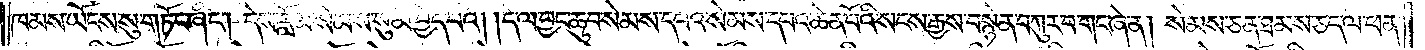ཁམས་ཡོངས་སུ་གཏོང་ཞིང༌། དེས་རློམ་སེམས་སུ་མི་བྱེད་པའོ། །དེ་ལ་བྱང་ཆུབ་སེམས་དཔའ་སེམས་དཔའ་ཆེན་པོའི་སངས་རྒྱས་བསྙེན་བཀུར་བ་གང་ཞེ་ན། སེམས་ཅན་ཐམས་ཅད་ལ་ཕན་
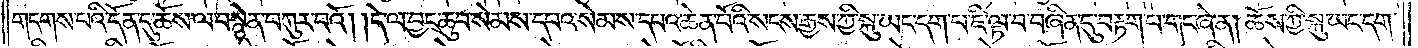གདགས་པའི་དོན་དུ་ཆོས་ལ་བསྙེན་བཀུར་བའོ། །དེ་ལ་བྱང་ཆུབ་སེམས་དཔའ་སེམས་དཔའ་ཆེན་པོའི་སངས་རྒྱས་ཀྱི་སྐུ་ཡང་དག་པ་ཇི་ལྟ་བ་བཞིན་དུ་བརྟག་པ་གང་ཞེ་ན། ཆོས་ཀྱི་སྐུ་ཡང་དག་
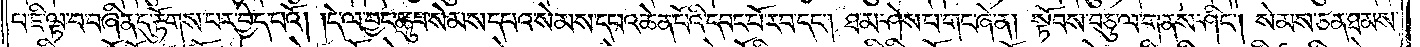པ་ཇི་ལྟ་བ་བཞིན་དུ་རྟོགས་པར་བྱེད་པའོ། །དེ་ལ་བྱང་ཆུབ་སེམས་དཔའ་སེམས་དཔའ་ཆེན་པོའི་དབང་པོ་རབ་དང༌། ཐ་མ་ཤེས་པ་གང་ཞེ་ན། སྟོབས་བཅུ་ལ་གནས་ཤིང༌། སེམས་ཅན་ཐམས་
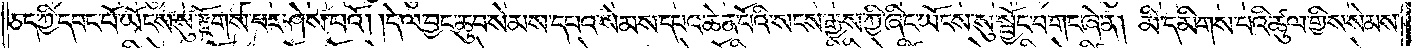ཅད་ཀྱི་དབང་པོ་ཡོངས་སུ་རྫོགས་པར་ཤེས་པའོ། །དེ་ལ་བྱང་ཆུབ་སེམས་དཔའ་སེམས་དཔའ་ཆེན་པོའི་སངས་རྒྱས་ཀྱི་ཞིང་ཡོངས་སུ་སྦྱོང་བ་གང་ཞེ་ན། མི་དམིགས་པའི་ཚུལ་གྱིས་སེམས་
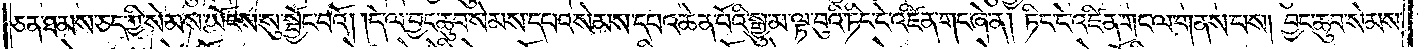ཅན་ཐམས་ཅད་ཀྱི་སེམས་ཡོངས་སུ་སྦྱོང་བའོ། །དེ་ལ་བྱང་ཆུབ་སེམས་དཔའ་སེམས་དཔའ་ཆེན་པོའི་སྒྱུ་མ་ལྟ་བུའི་ཏིང་ངེ་འཛིན་གང་ཞེ་ན། ཏིང་ངེ་འཛིན་གང་ལ་གནས་པས། བྱང་ཆུབ་སེམས་
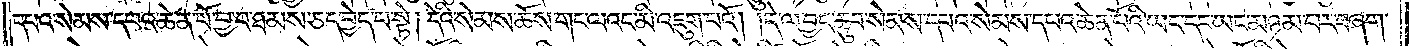དཔའ་སེམས་དཔའ་ཆེན་པོ་བྱ་བ་ཐམས་ཅད་བྱེད་པ་སྟེ། དེའི་སེམས་ཆོས་གང་ལའང་མི་འཇུག་པའོ། །དེ་ལ་བྱང་ཆུབ་སེམས་དཔའ་སེམས་དཔའ་ཆེན་པོའི་ཡང་དང་ཡང་མཉམ་པར་བཞག་
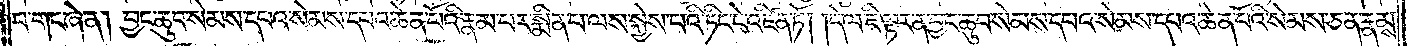པ་གང་ཞེ་ན། བྱང་ཆུབ་སེམས་དཔའ་སེམས་དཔའ་ཆེན་པོའི་རྣམ་པར་སྨིན་པ་ལས་སྐྱེས་པའི་ཏིང་ངེ་འཛིན་ཏོ། །དེ་ལ་ཇི་ལྟར་ན་བྱང་ཆུབ་སེམས་དཔའ་སེམས་དཔའ་ཆེན་པོའི་སེམས་ཅན་རྣམས་
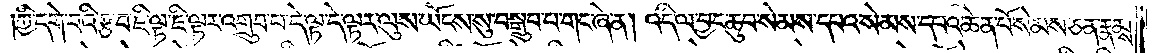ཀྱི་དགེ་བའི་རྩ་བ་ཇི་ལྟ་ཇི་ལྟར་འགྲུབ་པ་དེ་ལྟ་དེ་ལྟར་ལུས་ཡོངས་སུ་བསྒྲུབ་པ་གང་ཞེ་ན། འདི་ལ་བྱང་ཆུབ་སེམས་དཔའ་སེམས་དཔའ་ཆེན་པོ་སེམས་ཅན་རྣམས་
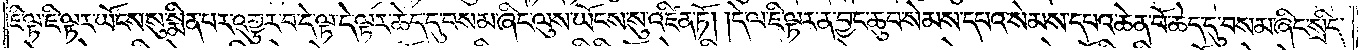ཇི་ལྟ་ཇི་ལྟར་ཡོངས་སུ་སྨིན་པར་འགྱུར་བ་དེ་ལྟར་དེ་ལྟར་ཆེད་དུ་བསམས་ཤིང་ལུས་ཡོངས་སུ་འཛིན་ཏོ། །དེ་ལ་ཇི་ལྟར་ན་བྱང་ཆུབ་སེམས་དཔའ་སེམས་དཔའ་ཆེན་པོ་ཆེད་དུ་བསམས་ཤིང་སྲིད་
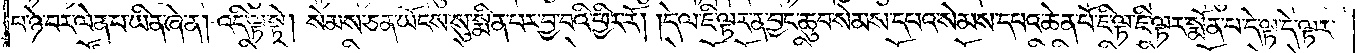པ་ཉེ་བར་ལེན་པ་ཡིན་ཞེ་ན། འདི་ལྟ་སྟེ། སེམས་ཅན་ཡོངས་སུ་སྨིན་པར་བྱ་བའི་ཕྱིར་རོ། །དེ་ལ་ཇི་ལྟར་ན་བྱང་ཆུབ་སེམས་དཔའ་སེམས་དཔའ་ཆེན་པོ་ཇི་ལྟ་ཇི་ལྟར་སྨོན་པ་དེ་ལྟ་དེ་ལྟར་
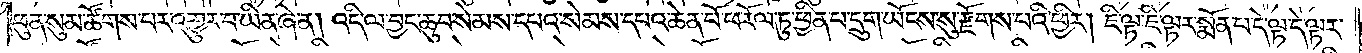ཕུན་སུམ་ཚོགས་པར་འགྱུར་བ་ཡིན་ཞེ་ན། འདི་ལ་བྱང་ཆུབ་སེམས་དཔའ་སེམས་དཔའ་ཆེན་པོ་ཕ་རོལ་ཏུ་ཕྱིན་པ་དྲུག་ཡོངས་སུ་རྫོགས་པའི་ཕྱིར། ཇི་ལྟ་ཇི་ལྟར་སྨོན་པ་དེ་ལྟ་དེ་ལྟར་
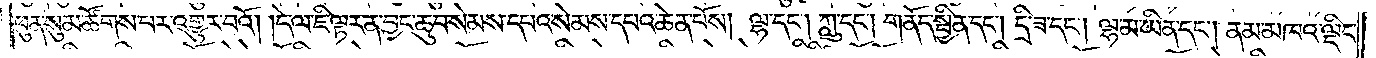ཕུན་སུམ་ཚོགས་པར་འགྱུར་བའོ། །དེ་ལ་ཇི་ལྟར་ན་བྱང་ཆུབ་སེམས་དཔའ་སེམས་དཔའ་ཆེན་པོས། ལྷ་དང༌། ཀླུ་དང༌། གནོད་སྦྱིན་དང༌། དྲི་ཟ་དང༌། ལྷ་མ་ཡིན་དང༌། ནམ་མཁའ་ལྡིང་
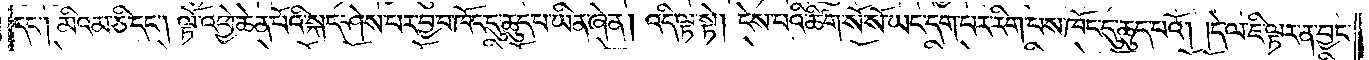དང༌། མི་འམ་ཅི་དང༌། ལྟོ་འཕྱེ་ཆེན་པོའི་སྐད་ཤེས་པར་བྱ་བ་ཁོང་དུ་ཆུད་པ་ཡིན་ཞེ་ན། འདི་ལྟ་སྟེ། ངེས་པའི་ཚིག་སོ་སོ་ཡང་དག་པར་རིག་པས་ཁོང་དུ་ཆུད་པའོ། །དེ་ལ་ཇི་ལྟར་ན་བྱང་
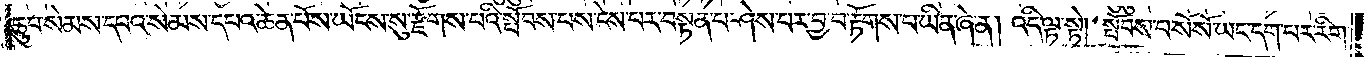ཆུབ་སེམས་དཔའ་སེམས་དཔའ་ཆེན་པོས་ཡོངས་སུ་རྫོགས་པའི་སྤོབས་པས་ངེས་པར་བསྟན་པ་ཤེས་པར་བྱ་བ་རྟོགས་པ་ཡིན་ཞེ་ན། འདི་ལྟ་སྟེ། སྤོབས་པ་སོ་སོ་ཡང་དག་པར་རིག་
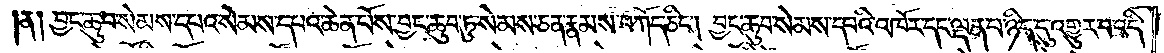ན། བྱང་ཆུབ་སེམས་དཔའ་སེམས་དཔའ་ཆེན་པོས་བྱང་ཆུབ་ཏུ་སེམས་ཅན་རྣམས་བཀོད་ཅིང༌། བྱང་ཆུབ་སེམས་དཔའི་འཁོར་དང་ལྡན་པ་ཉིད་དུ་འགྱུར་བ་འདི་
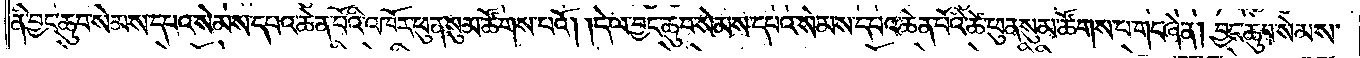ནི་བྱང་ཆུབ་སེམས་དཔའ་སེམས་དཔའ་ཆེན་པོའི་འཁོར་ཕུན་སུམ་ཚོགས་པའོ། །དེ་ལ་བྱང་ཆུབ་སེམས་དཔའ་སེམས་དཔའ་ཆེན་པོའི་ཚེ་ཕུན་སུམ་ཚོགས་པ་གང་ཞེ་ན། བྱང་ཆུབ་སེམས་
